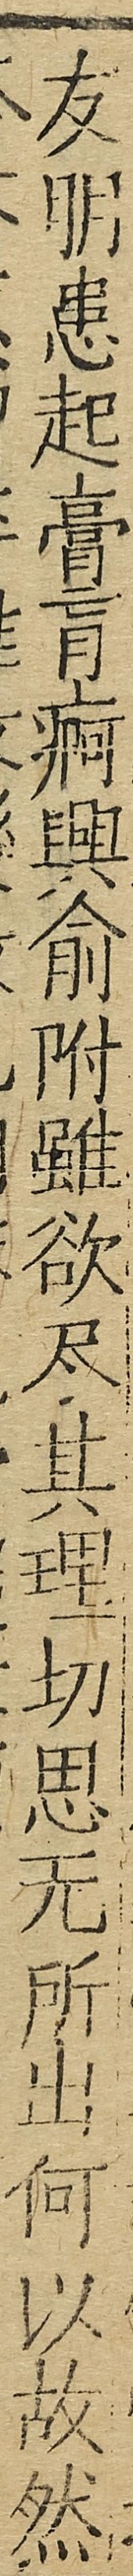友朋患起膏肓痾興俞附雖欲盡其理切思無所出何以故然
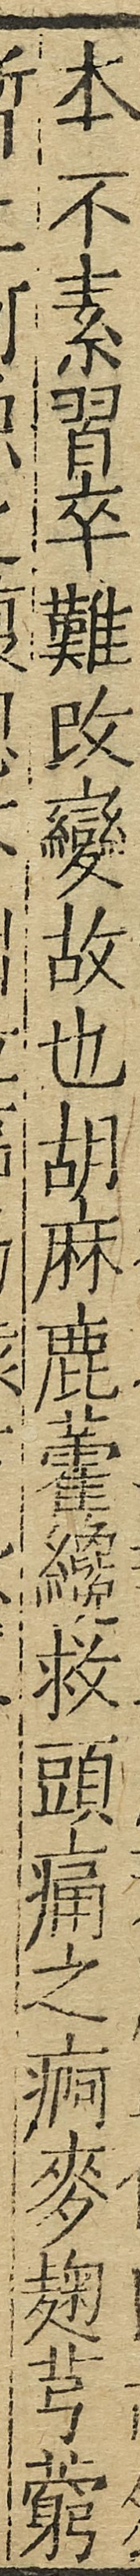本不素習卒難改變故也胡麻鹿藿纔救頭痛之痾麥麴芎藭
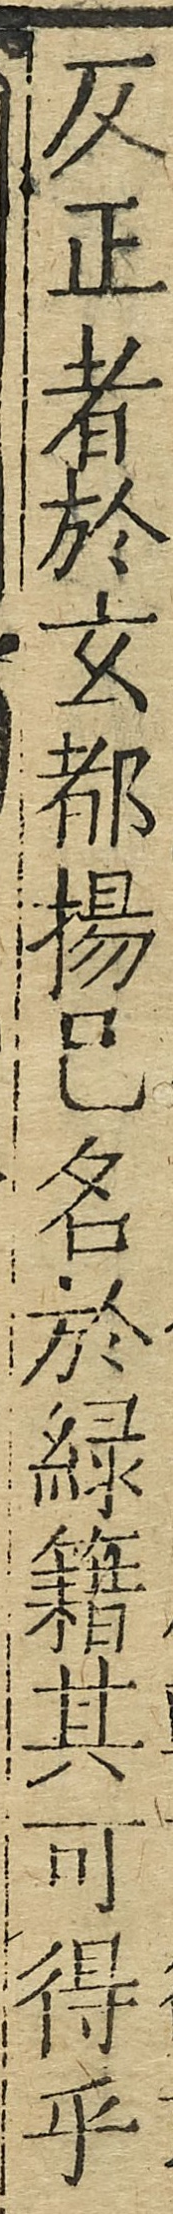反正者於玄都揚已名於緑籍其可得乎
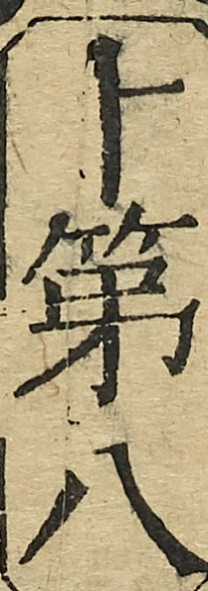卜第八
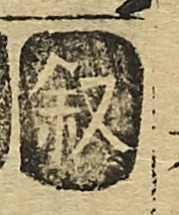敘
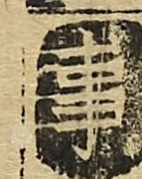事
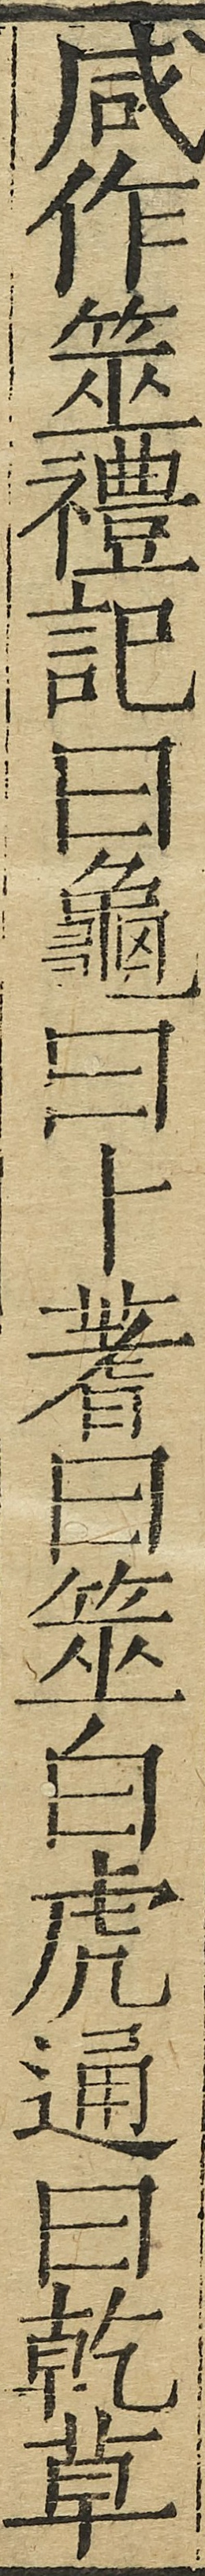咸作筮禮記曰龜曰卜蓍曰筮白虎通曰乾草
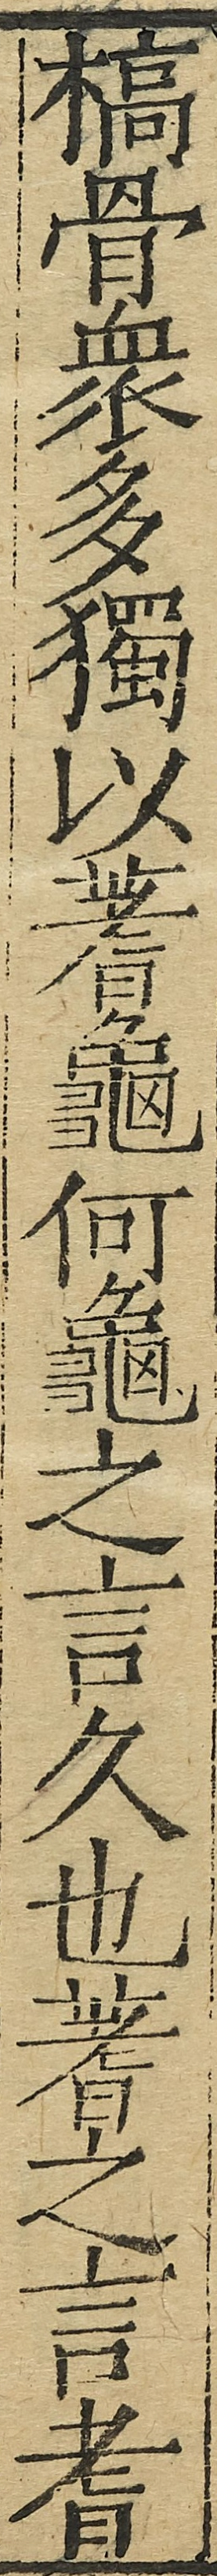槁骨衆多獨以蓍龜何龜之言久也蓍之言耆
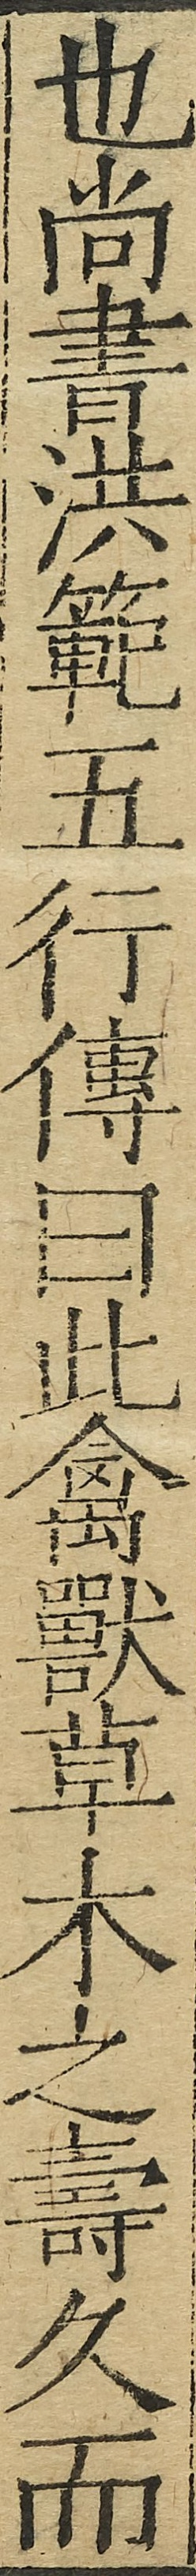也尚書洪範五行傳曰此禽獸草木之壽久而
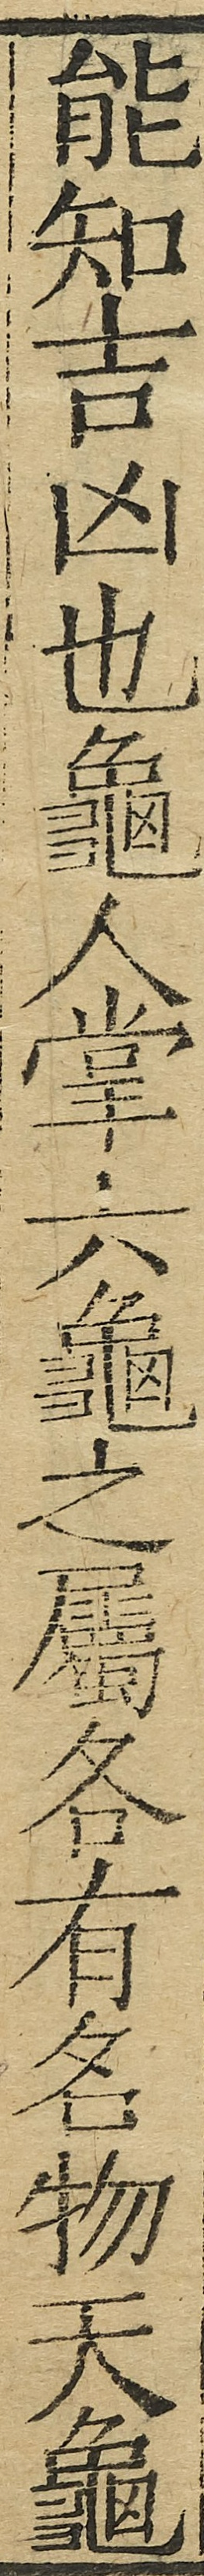能知吉凶也龜人掌六龜之屬各有名物天龜
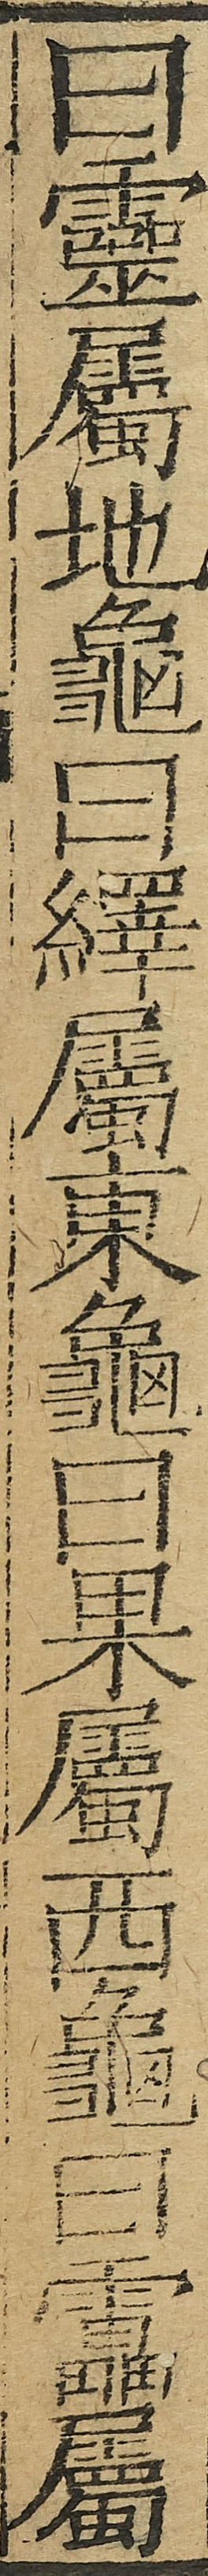曰靈屬地龜曰繹屬東龜曰果屬西龜曰靈屬
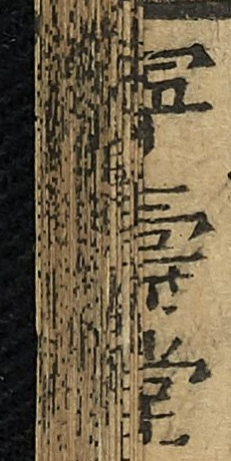寧壽堂
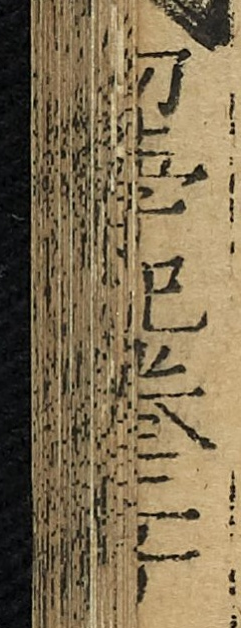初學記卷二十
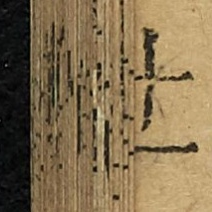十一
